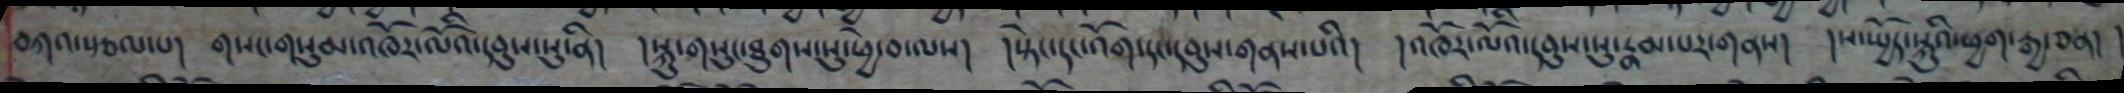བཀའ་སྩལ་པ། གསང་གསུམ་འཁོར་ལོའི་དབུས་སུ་ནི། །སྐུ་གསུང་ཐུགས་སུ་ཕྱེ་བ་ལས། །སྟེང་དང་འོག་དང་དབུས་གནས་པའི། །འཁོར་ལོའི་དབུས་སུ་རྣམ་པར་གནས། །ས་སྤྱོད་སྐུའི་ཕྱག་རྒྱ་ཅན། །
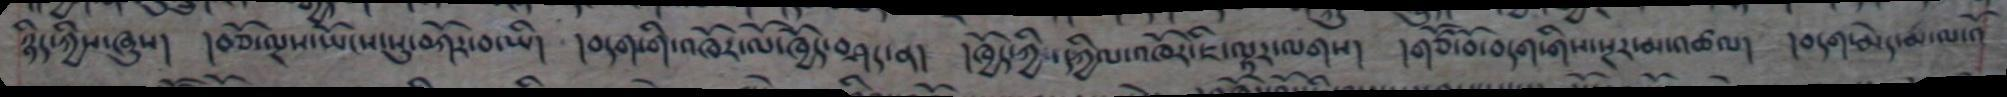ཉིད་ཀྱིས་ཞུས། །བཅོ་ལྔས་ཡོངས་སུ་བཀོར་བ་ཡི། །བདག་གི་འཁོར་ལོ་ཁྱོད་བཤད་ན། །ཁྱོད་ཀྱི་དཀྱིལ་འཁོར་ཇི་ལྟར་ལགས། །གཙོ་བོ་བདག་གིས་སྔར་མ་འཚལ། །བདག་མེད་མ་ལ་འོ
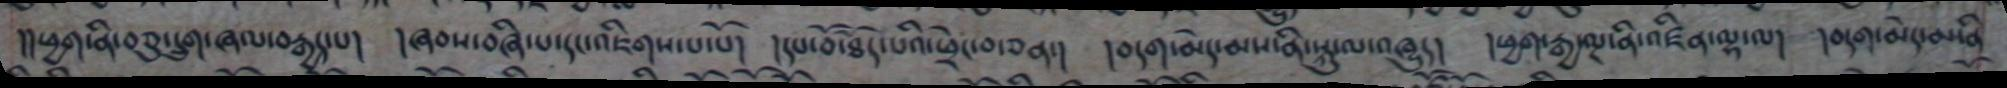།།ཕྱག་ནི་བཅུ་དྲུག་ཞལ་བརྒྱད་པ། །ཞབས་བཞི་པ་དང་འཇིགས་པ་པོ། །དཔ་བོ་ཐོད་པའི་ཕྲེང་བ་ཅན། །བདག་མེད་མས་ནི་སྐུ་ལ་འཁྱུད། །ཕྱག་རྒྱ་ལྔ་ནི་འཛིན་ལྷ་ལ། །བདག་མེད་མ་ནི
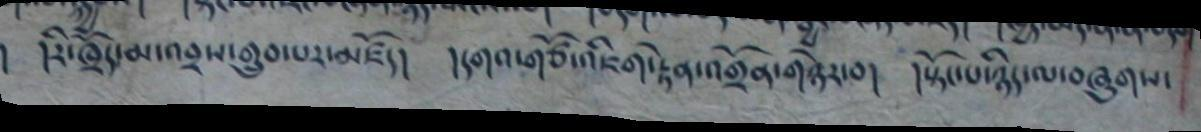། །རི་ཁྲོད་མ་འབྲས་གྲུབ་པར་མཛོད། །དགའ་གཙོ་འཇིག་རྟེན་འགྲོན་གཉེར་བ། །སྟོང་པ་ཉིད་ལ་བཞུགས་
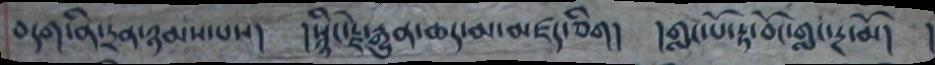བདག་ནི་དྲན་ཉམས་པས། །སྙིང་རྗེ་རྒྱུན་ཆད་མ་མཛད་ཅིག། །གླང་པོ་རྟ་བོ་གླང་རྔ་མོ། །
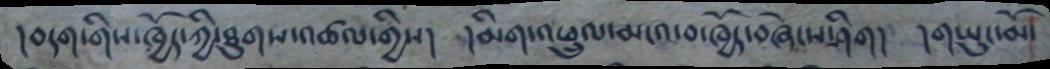།བདག་གིས་ཁྱོད་ཀྱི་ཐུགས་འཚལ་གྱིས། །མིག་འཕྲུལ་མངའ་བ་ཁྱོད་བཞེངས་ཤིག། །གཡུང་མོ་
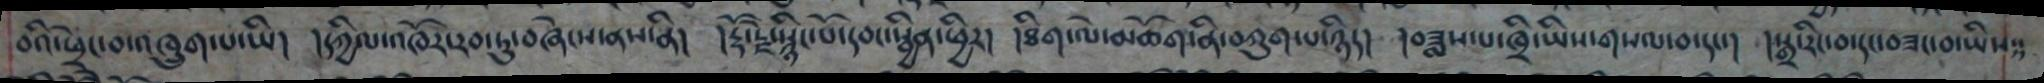བའི་ཕྲེང་བ་འཁྲུག་པ་ཡི། །དཀྱིལ་འཁོར་རབ་ཏུ་བཞེངས་ནས་ནི། །རྡོ་རྗེ་སྙིང་པོ་དབང་སྦྱིན་ཕྱིར། །ཐིག་ལེ་མཆོག་ནི་བཀུག་པ་ཉིད། །བཟླས་པ་ཁྲི་ཡིས་གསལ་བ་དང་། །སྒྲ་རིང་བ་དང་བཟང་བ་ཡིས་
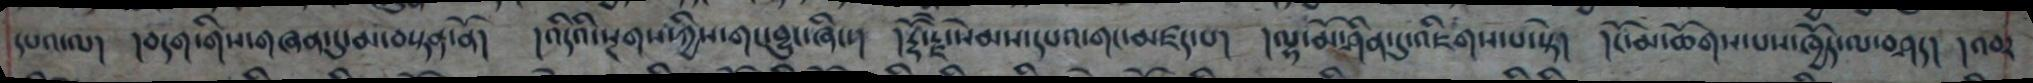དཔའ་ལ། །བདག་གིས་གཞན་དུ་མ་བསྟན་ནོ། །འདིའི་སྔགས་ཀྱིས་གང་བྱུང་ཞིང་། །རྡོ་རྗེ་སེམས་དཔའ་གང་མཛད་པ། །ལྷ་མོ་ཤིན་དུ་འཇིགས་པ་སྟེ། །ངོ་མ་ཆོགས་པས་ཁྱོད་ལ་བཤད། །འབར
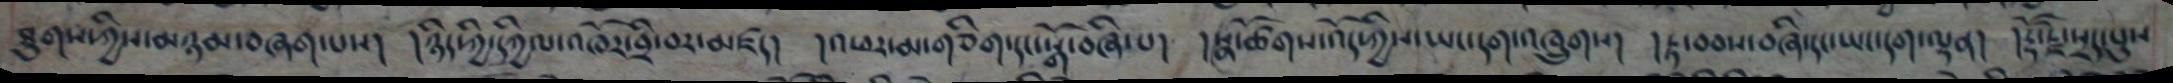ཐུགས་ཀྱིས་མཉམ་བཞག་པས། །ཉིད་ཀྱི་དཀྱིལ་འཁོར་བྲི་བར་མཛད། །འཕར་མ་གཅིག་དང་སྒོ་བཞི་པ། །སྣ་ཚོགས་འོད་ཀྱིས་ཡང་དག་འཁྲུགས། །རྟ་བབས་བཞི་དང་ཡང་དག་ལྡན། །རྡོ་རྗེ་སྲད་པུས
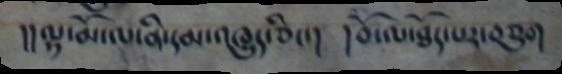།།ལྷ་མོ་ལ་ནི་དམ་དུ་འཁྱུད་ཅིང་། །བོ་ལ་ཐོད་པར་བཅུག
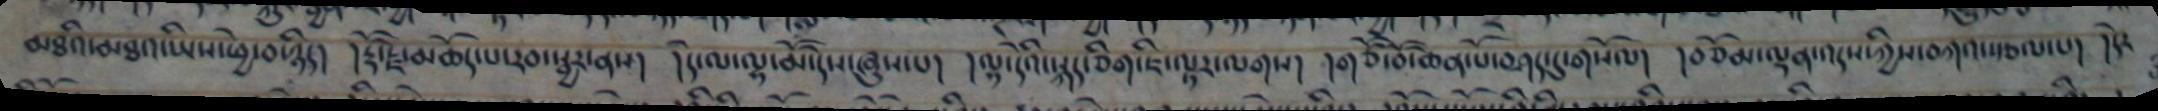མཐའི་མཐའ་ཡིས་ཕྱེ་བ་ཉིད། །རྡོ་རྗེ་མཆོད་པ་རབ་སྦྱར་ནས། །དེ་ལ་ལྷ་མོ་དེས་ཞུས་པ། །ལྷ་དེའི་སྐད་ཅིག་ཇི་ལྟར་ལགས། །གཙོ་བོ་ཆེན་པོ་བཤད་དུ་གསོལ། །བཅོམ་ལྡན་འདས་ཀྱིས་བཀའ་སྩལ་པ། །དེར
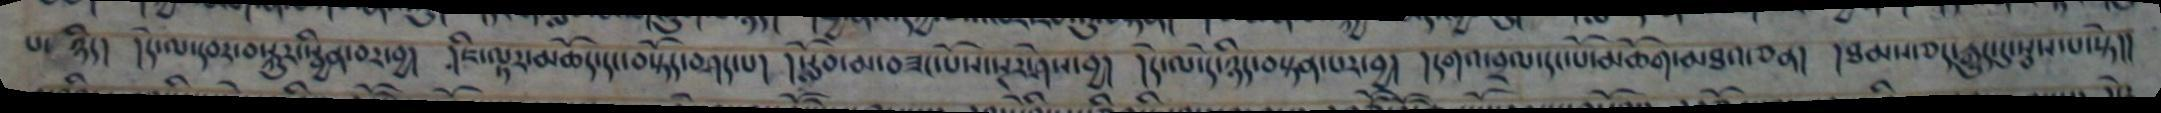པ་ ཉིད། །དེ་ལ་དབང་བསྐུར་སྦྱིན་བར་བྱ། །ཇི་ལྟར་མཆོད་དང་བསྟོད་བཤད་པ། །སློབ་མ་བཟང་པོས་སྔར་ཤེས་བྱ། །དེ་ལ་དེ་ཉིད་བསྟན་པར་བྱ། །དགའ་བྲལ་དང་པོ་མཆོག་མཐའ་ཅན། །ཐམས་ཅད་རྒྱུད་དུ་སྦས་པ་སྟེ།།
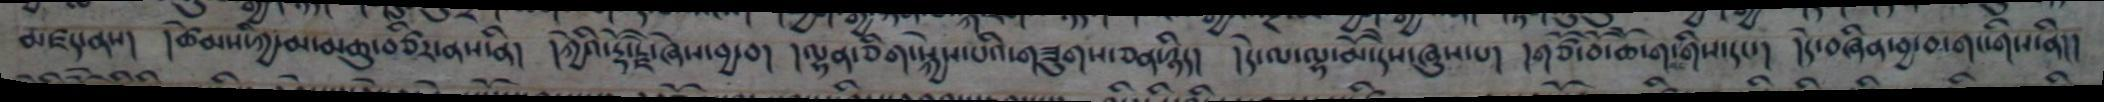མཛད་ནས། །ཚེམས་ཀྱི་མ་མཆུ་བཙིར་ནས་ནི། །ཀྱེའི་རྡོ་རྗེ་ཞེས་བྱ་བ། །ལྷན་ཅིག་སྐྱེས་པའི་གཟུགས་ཅན་ཉིད། །དེ་ལ་ལྷ་མོ་དེས་ཞུས་པ། །གཙོ་བོ་ཆོ་ག་གིས་དང་། །དེ་བཞིན་བྱ་བ་གང་གིས་ནི།།
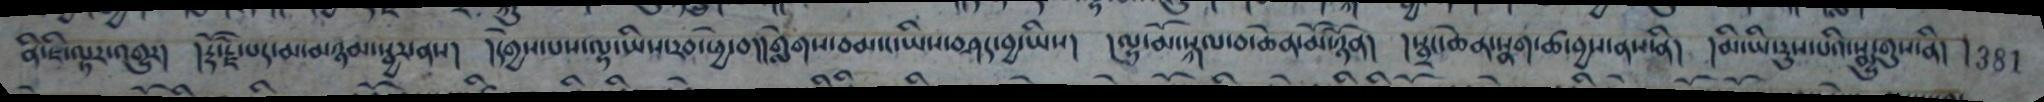ནི་ཇི་ལྟར་འགྱུར།  །རྡོ་རྗེ་པད་མ་མཉམ་སྦྱར་ནས།  །དགྱེས་པས་ལྷ་ཡིས་རབ་ཕྱེ་བ།། གླེགས་བམ་ང་ཡིས་བཤད་བྱ་ཡིས། །ལྷ་མོ་སྐལ་བ་ཆེན་མོ་ཉོན།  །སྦྲང་ཆེན་སྣག་ཚ་བྱས་ནས་ནི།  །མི་ཡི་རུས་པའི་སྨྱུ་གུས་ནི།  །381
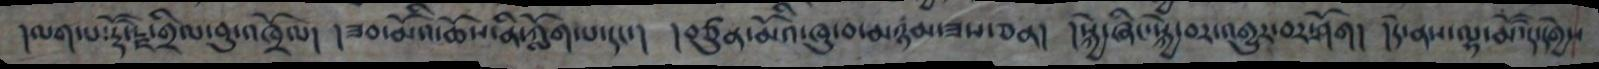།ལག་པ་རྡོ་རྗེ་གྲིལ་བུ་འཁྲོལ། །ཟབ་མོའི་ཆོས་ནི་ཀློག་པ་དང་། །བཙུན་མོའི་ཁུ་བ་མཉམ་ཟས་ཅན། །སྐྱེ་ཞིང་སྐྱེ་བར་འགྱུར་བར་ཤོག། །དེ་ནས་ལྷ་མོ་དེ་དགྱེས
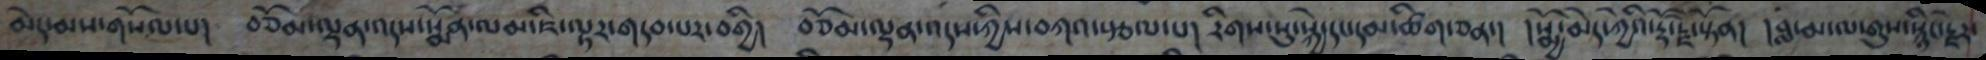མེད་མས་གསོལ་པ། བཅོམ་ལྡན་འདས་སྨོན་ལམ་ཇི་ལྟར་གདབ་པར་བགྱི། བཅོམ་ལྡན་འདས་ཀྱིས་བཀའ་སྩལ་པ། རིགས་སུ་སྐྱེ་དང་དམ་ཚིག་ཅན་། །སྨྱོ་མེད་ཀྱེའི་རྡོ་རྗེ་སྟོན། །བླ་མ་ལ་གུས་སྙིང་རྗེར་
